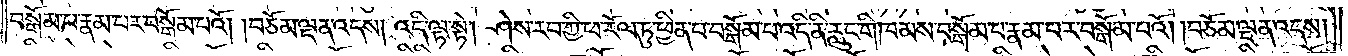བསྒོམ་པ་རྣམ་པར་བསྒོམ་པའོ། །བཅོམ་ལྡན་འདས། འདི་ལྟ་སྟེ། ཤེས་རབ་ཀྱི་ཕ་རོལ་ཏུ་ཕྱིན་པ་བསྒོམ་པ་འདི་ནི་རླུང་གི་ཁམས་བསྒོམ་པ་རྣམ་པར་བསྒོམ་པའོ། །བཅོམ་ལྡན་འདས།
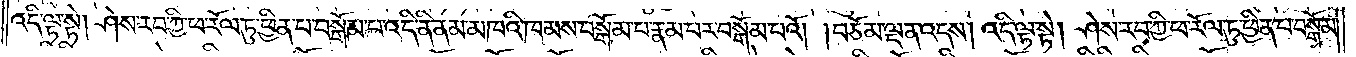འདི་ལྟ་སྟེ། ཤེས་རབ་ཀྱི་ཕ་རོལ་ཏུ་ཕྱིན་པ་བསྒོམ་པ་འདི་ནི་ནམ་མཁའི་ཁམས་བསྒོམ་པ་རྣམ་པར་བསྒོམ་པའོ། །བཅོམ་ལྡན་འདས། འདི་ལྟ་སྟེ། ཤེས་རབ་ཀྱི་ཕ་རོལ་ཏུ་ཕྱིན་པ་བསྒོམ་
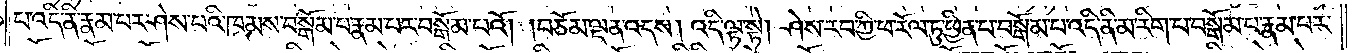པ་འདི་ནི་རྣམ་པར་ཤེས་པའི་ཁམས་བསྒོམ་པ་རྣམ་པར་བསྒོམ་པའོ། །བཅོམ་ལྡན་འདས། འདི་ལྟ་སྟེ། ཤེས་རབ་ཀྱི་ཕ་རོལ་ཏུ་ཕྱིན་པ་བསྒོམ་པ་འདི་ནི་མ་རིག་པ་བསྒོམ་པ་རྣམ་པར་
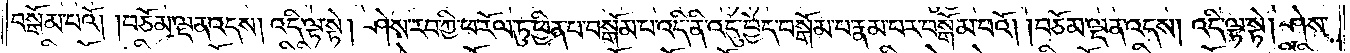བསྒོམ་པའོ། །བཅོམ་ལྡན་འདས། འདི་ལྟ་སྟེ། ཤེས་རབ་ཀྱི་ཕ་རོལ་ཏུ་ཕྱིན་པ་བསྒོམ་པ་འདི་ནི་འདུ་བྱེད་བསྒོམ་པ་རྣམ་པར་བསྒོམ་པའོ། །བཅོམ་ལྡན་འདས། འདི་ལྟ་སྟེ། ཤེས་
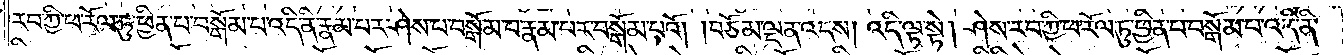རབ་ཀྱི་ཕ་རོལ་ཏུ་ཕྱིན་པ་བསྒོམ་པ་འདི་ནི་རྣམ་པར་ཤེས་པ་བསྒོམ་པ་རྣམ་པར་བསྒོམ་པའོ། །བཅོམ་ལྡན་འདས། འདི་ལྟ་སྟེ། ཤེས་རབ་ཀྱི་ཕ་རོལ་ཏུ་ཕྱིན་པ་བསྒོམ་པ་འདི་ནི་
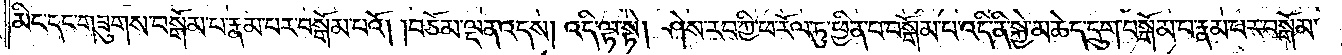མིང་དང་གཟུགས་བསྒོམ་པ་རྣམ་པར་བསྒོམ་པའོ། བཅོམ་ལྡན་འདས། འདི་ལྟ་སྟེ། ཤེས་རབ་ཀྱི་ཕ་རོལ་ཏུ་ཕྱིན་པ་བསྒོམ་པ་འདི་ནི་སྐྱེ་མཆེད་དྲུག་བསྒོམ་པ་རྣམ་པར་བསྒོམ་
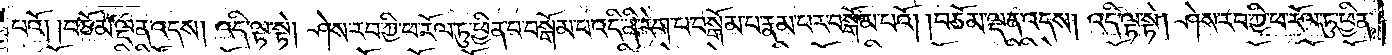པའོ། །བཅོམ་ལྡན་འདས། འདི་ལྟ་སྟེ། ཤེས་རབ་ཀྱི་ཕ་རོལ་ཏུ་ཕྱིན་པ་བསྒོམ་པ་འདི་ནི་རེག་པ་བསྒོམ་པ་རྣམ་པར་བསྒོམ་པའོ། །བཅོམ་ལྡན་འདས། འདི་ལྟ་སྟེ། ཤེས་རབ་ཀྱི་ཕ་རོལ་ཏུ་ཕྱིན་
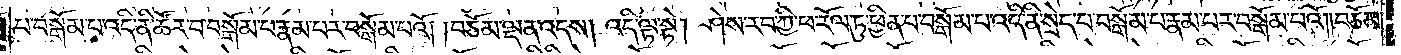པ་བསྒོམ་པ་འདི་ནི་ཚོར་བ་བསྒོམ་པ་རྣམ་པར་བསྒོམ་པའོ། །བཅོམ་ལྡན་འདས། འདི་ལྟ་སྟེ། ཤེས་རབ་ཀྱི་ཕ་རོལ་ཏུ་ཕྱིན་པ་བསྒོམ་པ་འདི་ནི་སྲེད་པ་བསྒོམ་པ་རྣམ་པར་བསྒོམ་པའོ། །བཅོམ་
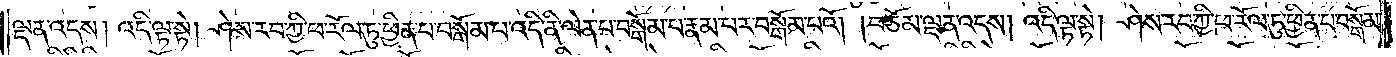ལྡན་འདས། འདི་ལྟ་སྟེ། ཤེས་རབ་ཀྱི་ཕ་རོལ་ཏུ་ཕྱིན་པ་བསྒོམ་པ་འདི་ནི་ལེན་པ་བསྒོམ་པ་རྣམ་པར་བསྒོམ་པའོ། །བཅོམ་ལྡན་འདས། འདི་ལྟ་སྟེ། ཤེས་རབ་ཀྱི་ཕ་རོལ་ཏུ་ཕྱིན་པ་བསྒོམ་
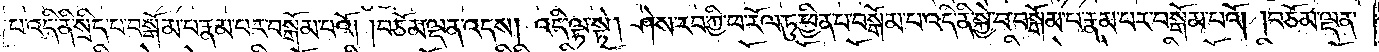པ་འདི་ནི་སྲིད་པ་བསྒོམ་པ་རྣམ་པར་བསྒོམ་པའོ། །བཅོམ་ལྡན་འདས། འདི་ལྟ་སྟེ། ཤེས་རབ་ཀྱི་ཕ་རོལ་ཏུ་ཕྱིན་པ་བསྒོམ་པ་འ་དི་ནི་སྐྱེ་བ་བསྒོམ་པ་རྣམ་པར་བསྒོམ་པའོ། །བཅོམ་ལྡན་
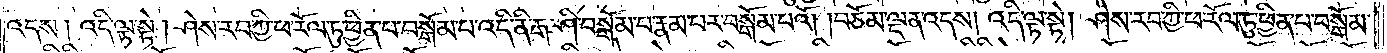འདས། འདི་ལྟ་སྟེ། ཤེས་རབ་ཀྱི་ཕ་རོལ་ཏུ་ཕྱིན་པ་བསྒོམ་པ་འདི་ནི་རྒ་ཤི་བསྒོམ་པ་རྣམ་པར་བསྒོམ་པའོ། །བཅོམ་ལྡན་འདས། འདི་ལྟ་སྟེ། ཤེས་རབ་ཀྱི་ཕ་རོལ་ཏུ་ཕྱིན་པ་བསྒོམ་
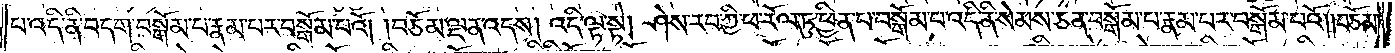པ་འདི་ནི་བདག་བསྒོམ་པ་རྣམ་པར་བསྒོམ་པའོ། །བཅོམ་ལྡན་འདས། འདི་ལྟ་སྟེ། ཤེས་རབ་ཀྱི་ཕ་རོལ་ཏུ་ཕྱིན་པ་བསྒོམ་པ་འདི་ནི་སེམས་ཅན་བསྒོམ་པ་རྣམ་པར་བསྒོམ་པའོ། །བཅོམ་
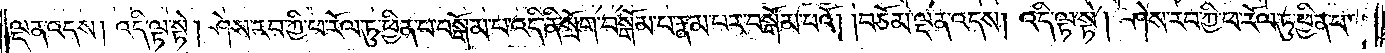ལྡན་འདས། འདི་ལྟ་སྟེ། ཤེས་རབ་ཀྱི་ཕ་རོལ་ཏུ་ཕྱིན་པ་བསྒོམ་པ་འདི་ནི་སྲོག་བསྒོམ་པ་རྣམ་པར་བསྒོམ་པའོ། །བཅོམ་ལྡན་འདས། འདི་ལྟ་སྟེ། ཤེས་རབ་ཀྱི་ཕ་རོལ་ཏུ་ཕྱིན་པ་
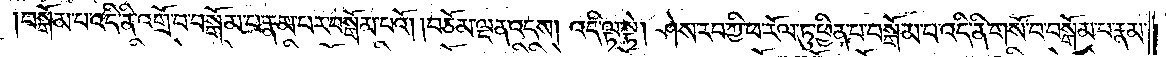བསྒོམ་པ་འདི་ནི་འགྲོ་བ་བསྒོམ་པ་རྣམ་པར་བསྒོམ་པའོ། །བཅོམ་ལྡན་འདས། འདི་ལྟ་སྟེ། ཤེས་རབ་ཀྱི་ཕ་རོལ་ཏུ་ཕྱིན་པ་བསྒོམ་པ་འདི་ནི་གསོ་བ་བསྒོམ་པ་རྣམ་
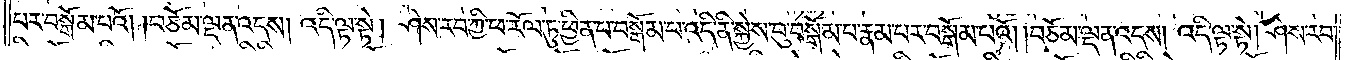པར་བསྒོམ་པའོ། །བཅོམ་ལྡན་འདས། འདི་ལྟ་སྟེ། ཤེས་རབ་ཀྱི་ཕ་རོལ་ཏུ་ཕྱིན་པ་བསྒོམ་པ་འདི་ནི་སྐྱེས་བུ་བསྒོམ་པ་རྣམ་པར་བསྒོམ་པའོ། །བཅོམ་ལྡན་འདས། འདི་ལྟ་སྟེ། ཤེས་རབ་
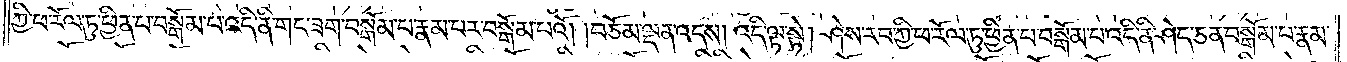ཀྱི་ཕ་རོལ་ཏུ་ཕྱིན་པ་བསྒོམ་པ་འདི་ནི་གང་ཟག་བསྒོམ་པ་རྣམ་པར་བསྒོམ་པའོ། །བཅོམ་ལྡན་འདས། འདི་ལྟ་སྟེ། ཤེས་རབ་ཀྱི་ཕ་རོལ་ཏུ་ཕྱིན་པ་བསྒོམ་པ་འདི་ནི་ཤེད་ཅན་བསྒོམ་པ་རྣམ་
